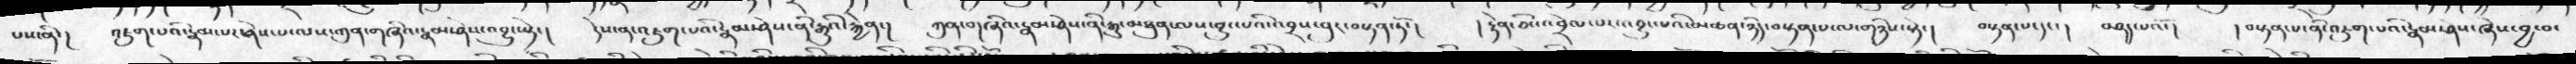པས་ནི་།  འཇུག་པའི་རྣམ་པར་ཤེས་པ་ལས་ཀུན་གཞིའ་རྣམ་ཤེས་འབྱུང་སྟེ་།  དེས་ན་འཇུག་པའི་རྣམ་ཤེས་ནི་རྒྱུའི་རྐྱེན་།  ཀུན་གཞིའ་རྣམ་ཤེས་ནི་རྒྱུ་མཐུན་ལས་བྱུང་པའི་འབྲས་བུར་བསྟན་ཏོ་།  ། རྟེན་ཅིང་འབྲེལ་པར་འབྱུང་པའི་མཚན་ཉིད་བསྟན་པ་ལ་གཉིས་སྟེ་།  བསྟན་པ་དང་།  བཤད་པའོ་།  ། བསྟན་པ་ནི་འཇུག་པའི་རྣམ་ཤེས་ཞེས་བྱ་བ་
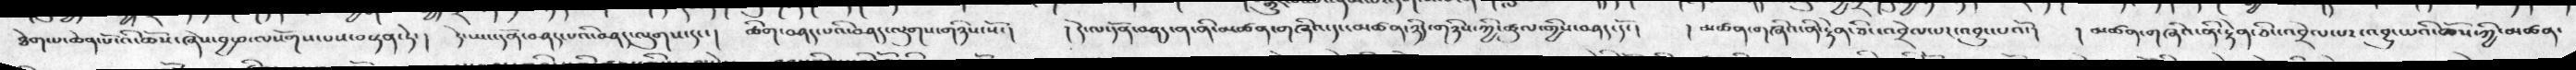ཐེག་པ་ཆེན་པོའི་ཆོས་ཞེས་བྱ་བ་སལོགས་པས་བསྟན་ཏེ་།  དེ་ཡང་དོན་བཤད་པའི་བཤད་ལུགས་དང་།  ཚིག་བཤད་པའི་བཤད་ལུགས་གཉིས་སོ་།  ། དེ་ལ་དོན་བཤད་ན་ནི་མཚན་གཞིའ་དང་མཚན་ཉིད་གཉིས་ཀྱི་ཚུལ་གྱིས་བཤད་དོ་།  ། མཚན་གཞིའ་ནི་རྟེན་ཅིང་འབྲེལ་པར་འབྱུང་པའོ་།    །  མཚན་གཞིའ་ནི་རྟེན་ཅིང་འབྲེལ་པ་འབྱུང་པའི་ཆོས་ཀྱི་མཚན་
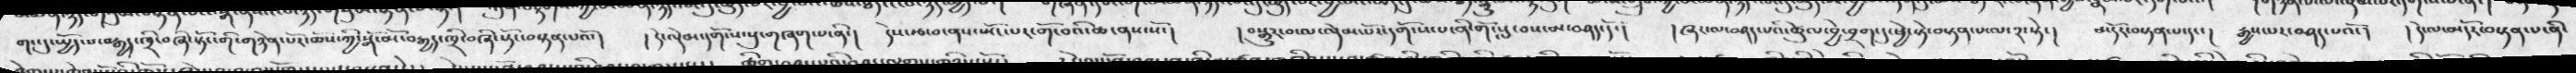གང་དུ་ཡྱོད་པ་བརྒྱད་ཁྲོ་བཞི་སྟོང་གི་གཉེན་པོར་ཆོས་ཀྱི་སྒོ་མོ་བརྒྱད་ཁྲི་བཞི་སྟོང་བསྟན་པའོ་།  ། དེ་ལྡེམ་དགོངས་སུ་གཞག་པ་ནིན་།  དེས་རྩ་བ་ནས་སྤོང་བར་གོ་བའི་ཆ་ནས་སོ་།  ། བསྒྱུར་བ་ལ་ལྡེམ་པོར་དགོངས་པ་ནི་གོ་སླ་བས་མ་བཤད་དོ་།    །  ཞར་ལ་བཤད་པའི་ཚུལ་བྱེ་བྲག་དུ་ཕྱེ་སྟེ་བསྟན་པ་ལ་༢་སྟེ་།   མདོར་བསྟན་པ་དང་།  རྒྱས་པར་བཤད་པའོ་།  ། དེ་ལ་མདོར་བསྟན་པ་ནི་
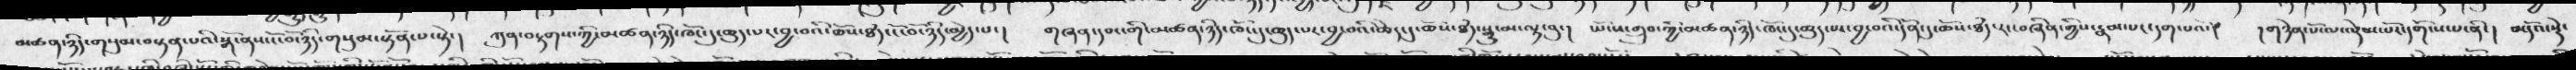མཚན་ཉིད་གསུམ་བསྟན་པའི་སྒོ་ནས་ངོ་བོ་ཉིད་གསུམ་སྟོན་པ་སྟེ་།  ཀུན་བརྟགས་ཀྱི་མཚན་ཉིད་ཁོང་དུ་ཆུད་པར་བྱ་བའི་ཆོས་ཐཾད་ངོ་བོ་ཉིད་མྱེད་པ་།   གཞན་དབང་གི་མཚན་ཉིད་ཁོང་དུ་ཆུད་པར་བྱ་བའི་ཆེད་དུ་ཆོས་ཐཾད་སྒྱུ་མ་ལྟ་བུ་།  ཡོངས་གྲུབ་གྱི་མཚན་ཉིད་ཁོང་དུ་ཆུད་པར་བྱ་བའི་དོན་དུ་ཆོས་ཐཾད་རང་བཞིན་གྱི་རྣམ་པར་དག་པའོ་།   ། གཉིན་པོ་ལ་ལྡེམ་པོར་དགོངས་པ་ནི་།   མདོའ་སྡེ་
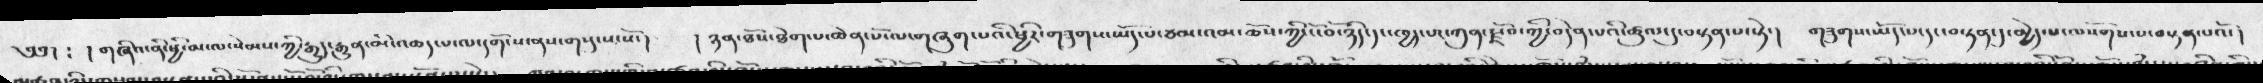༅༅།   ༴  ། གཞིའ་ནི་ཕྱི་མ་ལ་སེམས་ཀྱི་རྒྱུད་རྒྱུན་མི་འཆད་པ་ལ་དགོངས་ནས་གསུངས་སོ་།   ། ཉན་ཐོས་ཐེག་པ་ཆེན་པོ་ལ་གཞུག་པའི་ཕྱིར་གཟུགས་ཡོད་པ་ཙམ་འམ་ཆོས་ཀྱི་ངོ་བོ་ཉིད་དང་ཁྱད་པར་ཀུན་རྗོབ་ཀྱི་བདེན་པའི་ཚུལ་དུ་བསྟན་པ་སྟེ་།   གཟུགས་ཡོད་པ་དང་བསྟན་དུ་མྱེད་པ་ལསོགས་པ་བསྟན་པའོ་
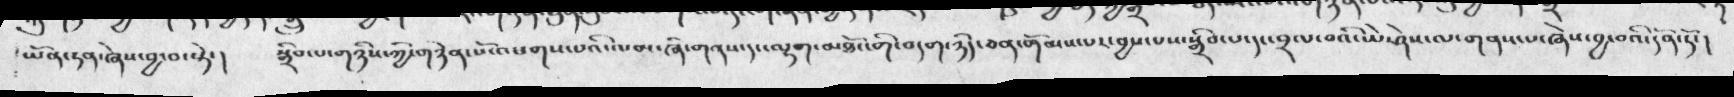།ཡོན་ཏན་ཞེས་བྱ་བ་སྟེ་།  སྒྲིབ་པ་གཉིས་ཀྱི་གཉེན་པོ་འཕགས་པའི་ལམ་ཞི་གནས་དང་ལྷག་མཐོང་གི་བདག་ཉིད་ཅན་གོམས་པར་བྱས་པས་སྒྲིབ་པ་དང་བྲལ་བའི་ཡེ་ཤེས་ལ་གནས་པ་ཞེས་བྱ་བའི་དོན་ཏོ་།
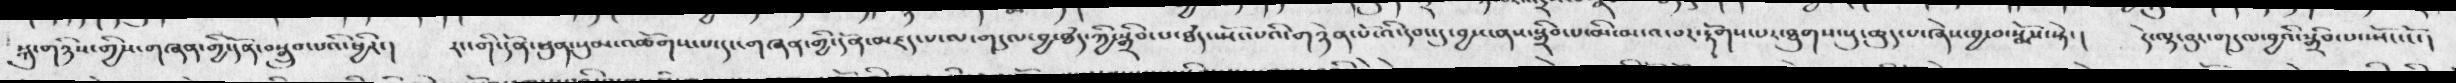སྐུ་གཉིས་གྱིས་གཞན་གྱི་དོན་བསྒྲུབ་པའི་ཕྱིར་།  རང་གི་དོན་ཕུན་སུམ་འཚོགས་པ་དང་གཞན་གྱི་དོན་མཛད་པ་ལ་གདུལ་བྱ་ཐཾད་ཀྱི་སྒྲིབ་པ་ཐཾད་ཀྱི་སྒྲིབ་པ་ཐཾད་སྤོངས་པའི་གཉེན་པོ་འི་དབང་ཅུ་བྱས་ནས་སྒྲིབ་པ་མི་མངའ་བར་རྟོགས་པར་ཐུགས་སུ་ཆུད་པ་ཞེས་བྱ་བ་སྨོས་སྟེ་།     དེ་ལྟ་བུར་གདུལ་བྱའི་སྒྲིབ་པ་སྤོང་ངོ་།
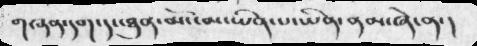གཞན་དག་དང་ཐུན་མོང་མ་ཡིན་པ་ཡིན་ནམ་ཞེ་ན་།
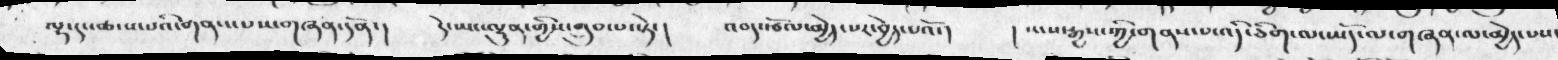ལྷ་དང་ཚངས་པའི་གནས་པས་གཞན་དོན་།  དེ་ཡང་ལྷུན་གྱིས་གྲུབ་པ་སྟེ་།   འབད་རྩོལ་མྱེད་པར་བྱེད་པའོ་།  ། སངས་རྒྱས་ཀྱི་གནས་པ་འདི་ཅིག་ལ་ཡོད་ལ་གཞན་ལ་མྱེད་པས་
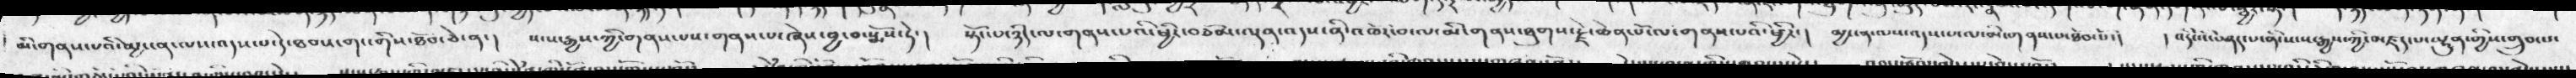མི་གནས་པའི་མྱ་ངན་ལས་འདས་པ་དེ་ཐབས་གང་གིས་ཐོབ་ཅེ་ན་།  སངས་རྒྱས་ཀྱི་གནས་པས་གནས་པ་ཞེས་བྱ་བ་སྨོས་ཏེ་།  སྟོང་པ་ཉིད་ལ་གནས་པའི་ཕྱིར་བཅོམ་ལྡན་འདས་ནི་འཁོར་བ་ལ་མི་གནས་ཐུགས་རྗེ་ཆེན་པོ་ལ་གནས་པའི་ཕྱིར་།  མྱ་ངན་ལས་འདས་པ་ལ་མི་གནས་པ་ཐེབ་པོ་།  ། འདི་འི་བཤད་པ་ནི་སངས་རྒྱས་ཀྱི་མཛད་པ་ལྷུན་གྱིས་གྲུབ་པ་
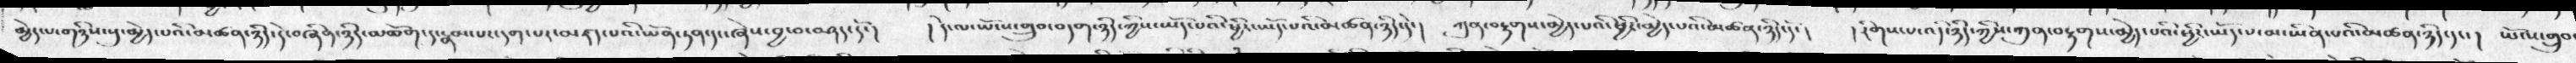མྱེད་པ་གཉིས་སུ་མྱེད་པའི་མཚན་ཉིད་དེ་བཞིན་ཉིད་མཆོག་དང་རྣམ་པར་དག་པར་མཛད་པའི་ཡོན་ཏན་དང་ཞེས་བྱ་བ་བཤད་དོ་།  །  དེ་ལ་ཡོངས་གྲུབ་བདག་ཉིད་ཀྱིས་ཡོད་པའི་ཕྱིར་ཡོད་པའི་མཚན་ཉིད་དེ་།  ཀུན་བརྟགས་མྱེད་པའི་ཕྱིར་མྱེད་པའི་མཚན་ཉིད་དོ་།  ། རིགས་པ་འདི་ཉིད་ཀྱིས་ཀུན་བརྟགས་མྱེད་པའི་ཕྱིར་ཡོད་པ་མ་ཡིན་པའི་མཚན་ཉིད་དང་།  ཡོངས་གྲུབ་
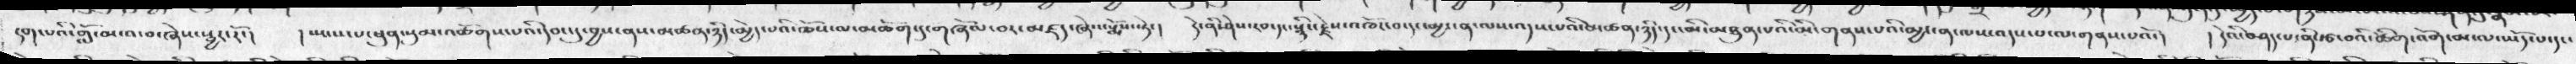དག་པའི་གློ་མངའ་བ་ཞེས་སྦྱར་རོ་།  ། སྤངས་པ་ཕུན་སུམ་འཚོགས་པའི་དབང་དུ་བྱས་ནས་མཚན་ཉིད་མྱེད་པའི་ཆོས་ལ་མཆོག་དུ་གཞོལ་བར་མཛད་ཞེས་སྨོས་སྟེ་།  དེ་ནི་ཤེས་རབ་དང་སྙིང་རྗེས་འཁོར་བ་དང་མྱ་ངན་ལས་འདས་པའི་མཚན་ཉིད་དང་མི་མཐུན་པའི་མི་གནས་པའི་མྱ་ངན་ལས་འདས་པ་ལ་གནས་པའོ་།   ། དེའི་བཤད་པ་ནི་རྩ་བའི་ཚིག་འོག་མ་ལ་ཡོད་པ་དང་
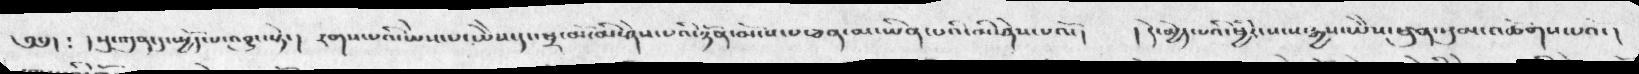༄༅། ༴  ། སུ་གུན་དུ་སྤྱོད་པ་འབྱུང་སྟེ་།  རགས་པའི་ཡས་པ་ཡེེས་དང་སྦྲ་མོ་མི་ཤེས་པའི་ཉོན་མོངས་པ་ཅན་མ་ཡིན་པའི་མི་ཤེས་པའོ་།   ། དེ་མྱེད་པའི་ཕྱིར་སངས་རྒྱས་ཡེེས་ཕུན་སུམ་འཚོགས་པའི་།
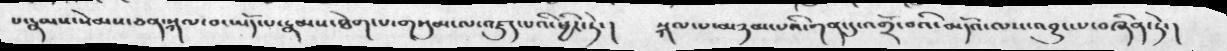པ་རྣམས་སེམས་ཅན་སྐལ་བ་ཡོད་པ་རྣམས་ཐེག་པ་གསུམ་ལ་འཇུད་པའི་ཕྱིར་ཏེ་།   སྐལ་པ་མཉམ་པའི་གན་དུ་འགྲོ་བའི་མདོའ་ལས་འབྱུང་པ་བཞིན་ཏེ་།
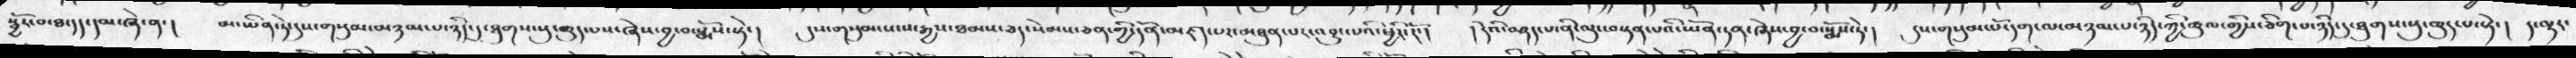སྦྱོར་བ་ཐ་དད་དམ་ཞེ་ན་།  མ་ཡིན་ཏེ་དུས་གསུམ་མཉམ་པ་ཉིད་དུ་ཐུགས་སུ་ཆུད་པས་ཞེས་བྱ་བ་སྨོས་སྟེ་།  དུས་གསུམ་སངས་རྒྱས་ཐམས་ཅད་སེམས་ཅན་གྱི་དོན་མཛད་པར་མཐུན་པར་འབྱུང་པའི་ཕྱིར་རོ་།  ། དེའི་བཤད་པ་ནི་ལུང་བསྟན་པའི་ཡོན་ཏན་ཞེས་བྱ་བ་སྨོས་ཏེ་།  དུས་གསུམ་པོ་དག་ལ་མཉམ་པ་ཉིད་ཀྱི་ཚུལ་གྱིས་ཐིག་པ་ཉིད་དུ་ཐུགས་སུ་ཆུད་པ་སྟེ་།  ད་ལྟར་
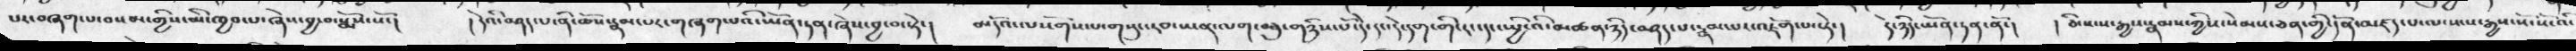པར་བཞག་པ་བསམ་གྱིས་མི་ཁྱབ་པ་ཞེས་བྱ་བ་སྨོས་སོ་།  ། དེའི་བཤད་པ་ནི་ཆོས་སྣམ་པར་གཞག་པའི་ཡོན་ཏན་ཞེས་བྱ་བ་སྟེ་།  མདོའ་ལསོགས་པ་གསུང་རབ་ཡན་ལག་བཅུ་གཉིས་པ་དེ་དང་དེ་དག་གི་རང་དང་སྤྱིའི་མཚན་ཉིད་བཤད་པ་རྣམ་པར་འཇོག་པ་རེད་།  དེ་ཉིད་ཡོན་ཏན་ནོ་།   ། ཅི་སངས་རྒྱས་རྣམས་ཀྱིས་སེམས་ཅན་གྱི་དོན་མཛད་པ་ལ་སངས་རྒྱས་སོ་སོ་འི་
